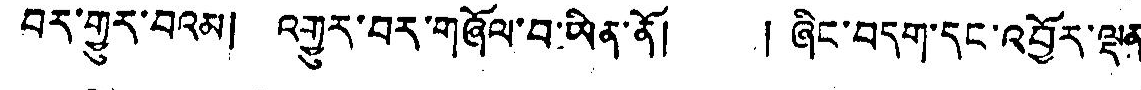བར་གྱུར་བའམ། འགྱུར་བར་གཞོལ་བ་ཡིན་ནོ། ། ཞིང་བདག་དང་འབྱོར་ལྡན་
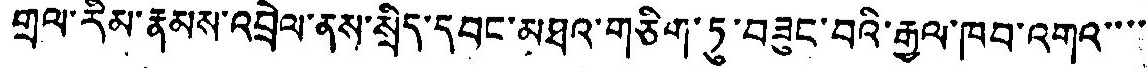གྲལ་རིམ་རྣམས་འབྲེལ་ནས་སྲིད་དབང་མཐའ་གཅིག་ཏུ་བཟུང་བའི་རྒྱལ་ཁབ་འགའ་་་་
